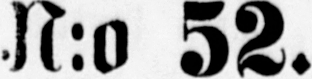N:o 52.
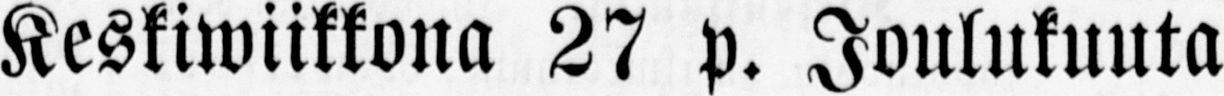Keskiwiikkona 27 p. Joulukuuta
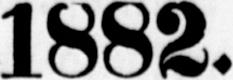1882.
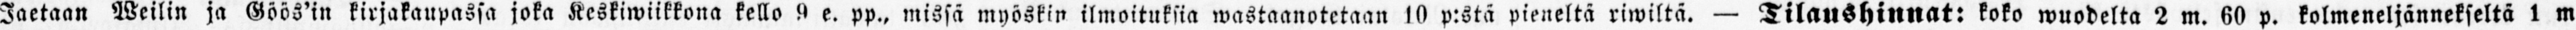Jaetaan Weilin ja Göös'in kirjakaupassa joka Keskiwiikkona kello 9 e. pp., missä myöskin ilmoituksia wastaanotetaan 10 p:stä pieneltä riwiltä. — Tilaushinnat: koko wuodelta 2 m. 60 p. kolmeneljännekseltä 1 m
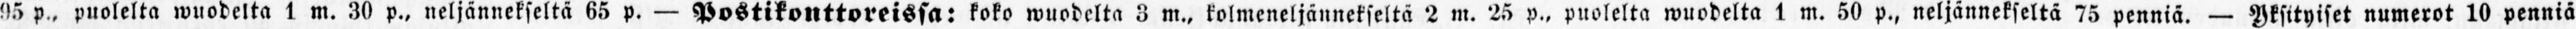95 p., puolelta wuodelta 1 m. 30 p., neljännekseltä 65 p. — Postikonttoreissa: koko wuodelta 3 m., kolmeneljännekseltä 2 m. 25 p., puolelta wuodelta 1 m. 50 p., neljännekseltä 75 penniä. — Yksityiset numerot 10 penniä
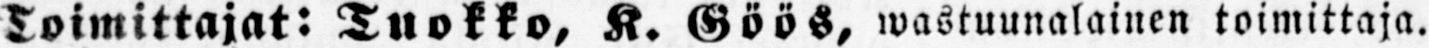Toimittajat: Tuokko, K. Göös, wastuunalainen toimittaja.
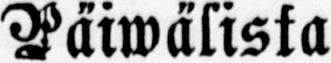Päiwälista
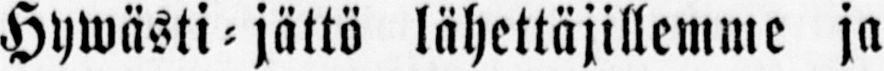Hywsästi-jättö lähettäjillemme ja
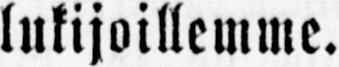lukijoillemme.
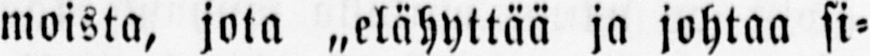moista, jota ˶elähyttää ja johtaa si-
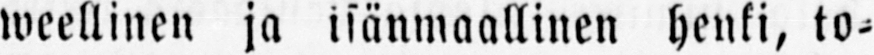weellinen ja isänmaallinen henki, to-
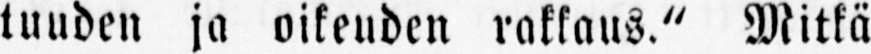tuuden ja oikeuden rakkaus." Mitkä
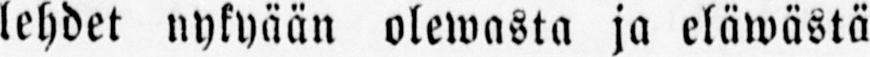lehdet nykyään olewasta ja eläwästä
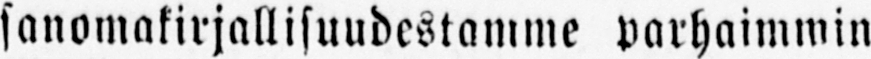sanomakirjallisuudestamme varhaimmin
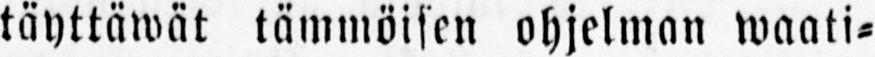täyttäwät tämmöisen ohjelman waati-
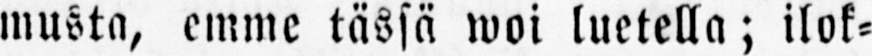musta, emme tässä woi luetella; ilok-
